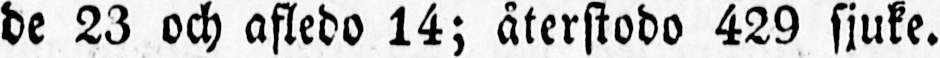de 23 och afledo 14; återstodo 429 sjuke.
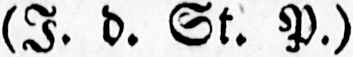(I. d. St. P.)
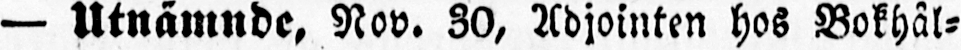— Utnämnde, Nov. 30, Adjointen hos Bokhål-
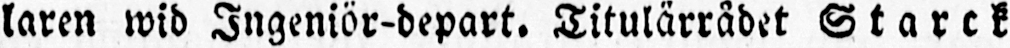laren wid Ingeniör-depart. Titulärrådet Starck
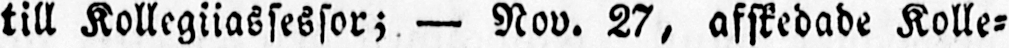till Kollegiiassessor; — Nov. 27, afskedade Kolle-
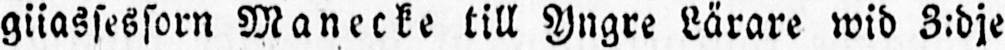giiassessorn Manecke till Yngre Lärare wid 3:dje
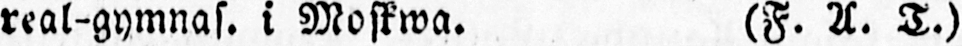real-gymnas. i Moskwa. (F. A. T.)
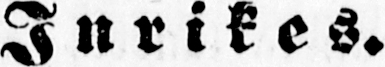Inrikes.
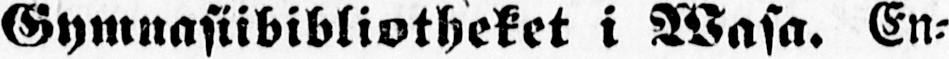Gymnasiibibliotheket i Wasa. En-
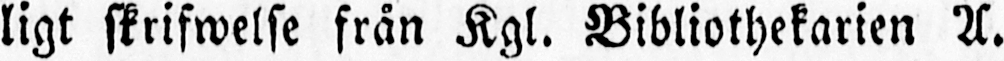ligt skrifwelse från Kgl. Bibliothekarien A.
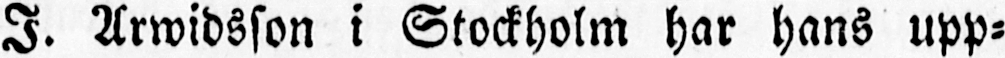I. Arwidsson i Stockholm har hans upp-
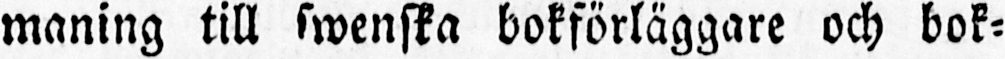maning till swenska bokförläggare och bok-
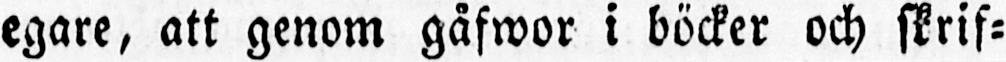egare, att genom gåfwor i böcker och skrif-
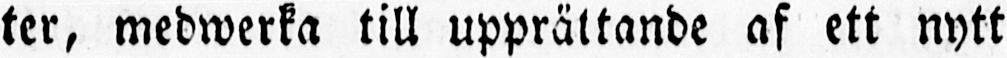ter, medwerka till upprättande af ett nytt
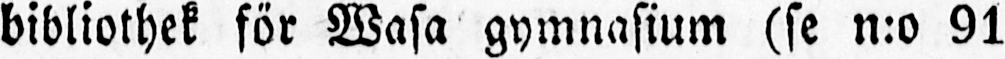bibliothek för Wasa gymnasium (se n:o 91
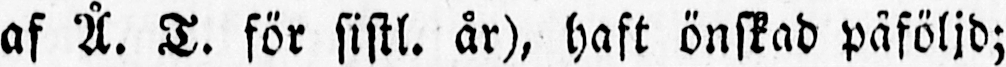af Å. T. för sistl. år), haft önskad påföljd;
